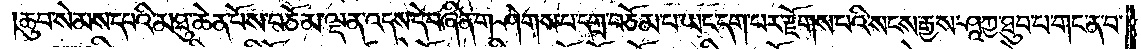ཆུབ་སེམས་དཔའི་མཐུ་ཆེན་པོས་བཅོམ་ལྡན་འདས་དེ་བཞིན་གཤེགས་པ་དགྲ་བཅོམ་པ་ཡང་དག་པར་རྫོགས་པའི་སངས་རྒྱས་ཤཱཀྱ་ཐུབ་པ་གང་ན་བ་
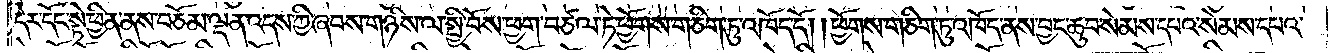དེར་དོང་སྟེ་ཕྱིན་ནས་བཅོམ་ལྡན་འདས་ཀྱི་ཞབས་གཉིས་ལ་སྤྱི་བོས་ཕྱག་བཙལ་ཏེ་ཕྱོགས་གཅིག་ཏུ་འཁོད་དོ། །ཕྱོགས་གཅིག་ཏུ་འཁོད་ནས་བྱང་ཆུབ་སེམས་དཔའ་སེམས་དཔའ་
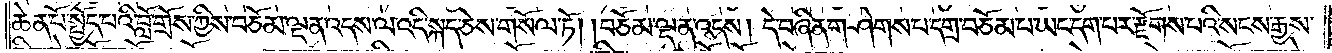ཆེན་པོ་སྤྱོད་པའི་བློ་གྲོས་ཀྱིས་བཅོམ་ལྡན་འདས་ལ་འདི་སྐད་ཅེས་གསོལ་ཏོ། །བཅོམ་ལྡན་འདས། དེ་བཞིན་གཤེགས་པ་དགྲ་བཅོམ་པ་ཡང་དག་པར་རྫོགས་པའི་སངས་རྒྱས་
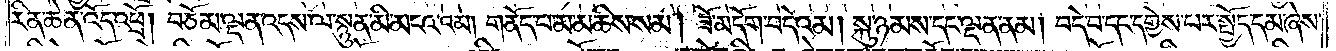རིན་ཆེན་འོད་འཕྲོ། བཅོམ་ལྡན་འདས་ལ་སྙུན་མི་མངའ་འམ། གནོད་པ་མ་མཆིས་སམ། ཟོ་མདོག་བདེའམ། སྐུ་ཉམས་དང་ལྡན་ནམ། བདེ་བ་དང་དགྱེས་པར་སྤྱོད་དམ་ཞེས་
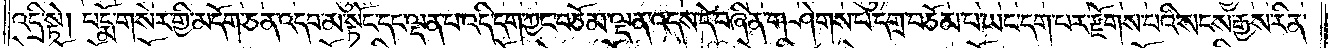འདྲི་སྟེ། པདྨོ་གསེར་གྱི་མདོག་ཅན་འདབ་མ་སྟོང་དང་ལྡན་པ་འདི་དག་ཀྱང་བཅོམ་ལྡན་འདས་དེ་བཞིན་གཤེགས་པ་དགྲ་བཅོམ་པ་ཡང་དག་པར་རྫོགས་པའི་སངས་རྒྱས་རིན་
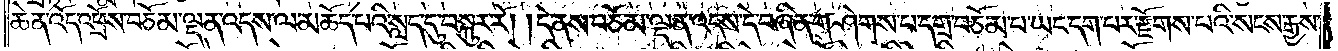ཆེན་འོད་འཕྲོས་བཅོམ་ལྡན་འདས་ལ་མཆོད་པའི་སླད་དུ་བསྐུར་རོ། །དེ་ནས་བཅོམ་ལྡན་འདས་དེ་བཞིན་གཤེགས་པ་དགྲ་བཅོམ་པ་ཡང་དག་པར་རྫོགས་པའི་སངས་རྒྱས་
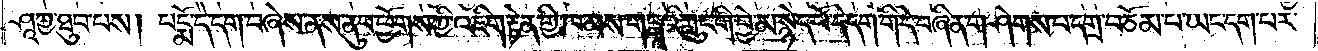ཤཱཀྱ་ཐུབ་པས། པདྨོ་དེ་དག་བཞེས་ནས་ནུབ་ཕྱོགས་ཀྱི་འཇིག་རྟེན་གྱི་ཁམས་གངྒཱའི་ཀླུང་གི་བྱེ་མ་སྙེད་ཕོ་དེ་དག་གི་དེ་བཞིན་གཤེགས་པ་དགྲ་བཅོམ་པ་ཡང་དག་པར་
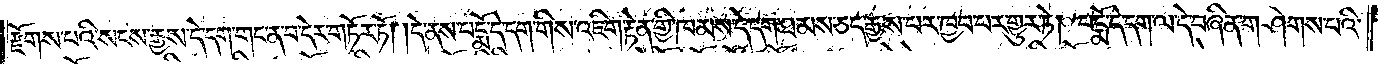རྫོགས་པའི་སངས་རྒྱས་དེ་དག་གང་ན་བ་དེར་གཏོར་ཏོ། །དེ་ནས་པདྨོ་དེ་དག་གིས་འཇིག་རྟེན་གྱི་ཁམས་དེ་དག་ཐམས་ཅད་རྒྱས་པར་ཁྱབ་པར་གྱུར་ཏེ། པདྨོ་དེ་དག་ལ་དེ་བཞིན་གཤེགས་པའི་
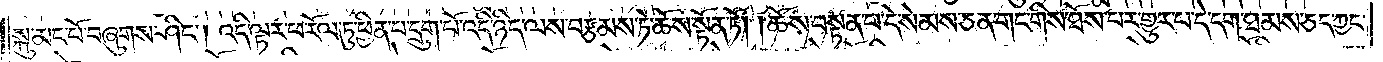སྐུ་མང་པོ་བཞུགས་ཤིང༌། འདི་ལྟར་ཕ་རོལ་ཏུ་ཕྱིན་པ་དྲུག་པོ་འདི་ཉིད་ལས་བརྩམས་ཏེ་ཆོས་སྟོན་ཏོ། །ཆོས་བསྟན་པ་དེ་སེམས་ཅན་གང་གིས་ཐོས་པར་གྱུར་པ་དེ་དག་ཐམས་ཅད་ཀྱང་
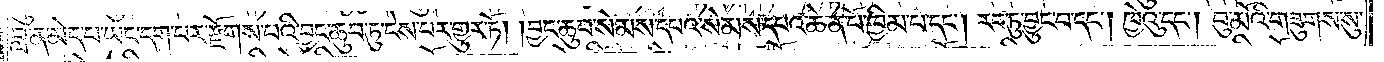བླ་ན་མེད་པ་ཡང་དག་པར་རྫོགས་པའི་བྱང་ཆུབ་ཏུ་ངེས་པར་གྱུར་ཏོ། །བྱང་ཆུབ་སེམས་དཔའ་སེམས་དཔའ་ཆེན་པོ་ཁྱིམ་པ་དང༌། རབ་ཏུ་བྱུང་བ་དང༌། ཁྱེའུ་དང༌། བུ་མོའི་གཟུགས་སུ་
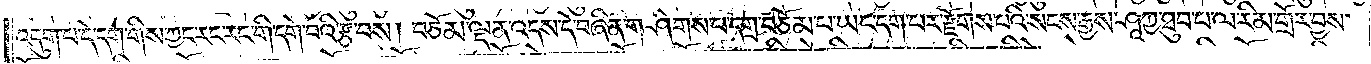འདུག་པ་དེ་དག་གིས་ཀྱང་རང་རང་གི་དགེ་བའི་རྩ་བས། བཅོམ་ལྡན་འདས་དེ་བཞིན་གཤེགས་པ་དགྲ་བཅོམ་པ་ཡང་དག་པར་རྫོགས་པའི་སངས་རྒྱས་ཤཱཀྱ་ཐུབ་པ་ལ་རིམ་གྲོར་བྱས་
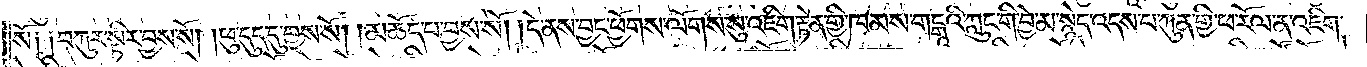སོ༑ ༑བཀུར་སྟིར་བྱས་སོ། །ཕུ་དུད་དུ་བྱས་སོ། །མཆོད་པ་བྱས་སོ། །དེ་ནས་བྱང་ཕྱོགས་ལོགས་སུ་འཇིག་རྟེན་གྱི་ཁམས་གངྒཱའི་ཀླུང་གི་བྱེ་མ་སྙེད་འདས་པ་ཀུན་གྱི་ཕ་རོལ་ན་འཇིག་
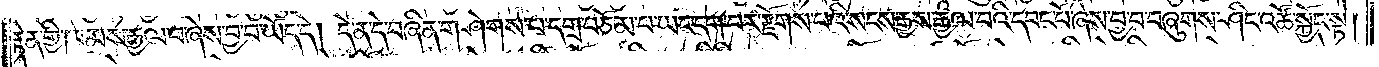རྟེན་གྱི་ཁམས་རྒྱལ་བ་ཞེས་བྱ་བ་ཡོད་དེ། དེ་ན་དེ་བཞིན་གཤེགས་པ་དགྲ་བཅོམ་པ་ཡང་དག་པར་རྫོགས་པའི་སངས་རྒྱས་རྒྱལ་བའི་དབང་པོ་ཞེས་བྱ་བ་བཞུགས་ཤིང་འཚོ་སྐྱོང་སྟེ།
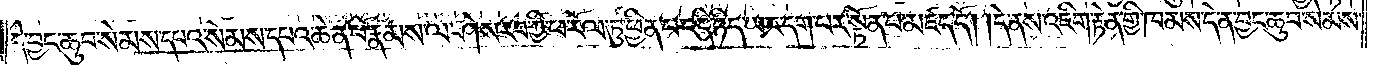དེ་བྱང་ཆུབ་སེམས་དཔའ་སེམས་དཔའ་ཆེན་པོ་རྣམས་ལ་ཤེས་རབ་ཀྱི་ཕ་རོལ་ཏུ་ཕྱིན་པ་འདི་ཉིད་ཡང་དག་པར་སྟོན་པ་མཛད་དོ། །དེ་ནས་འཇིག་རྟེན་གྱི་ཁམས་དེ་ན་བྱང་ཆུབ་སེམས་
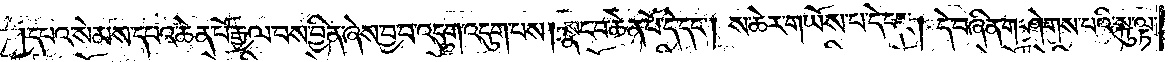དཔའ་སེམས་དཔའ་ཆེན་པོ་རྒྱལ་བས་བྱིན་ཞེས་བྱ་བ་འདུག་འདུག་པས། སྣང་བ་ཆེན་པོ་དེ་དང༌། ས་ཆེར་གཡོས་པ་དེ་དང༌། དེ་བཞིན་གཤེགས་པའི་སྐུ་ལྟ་
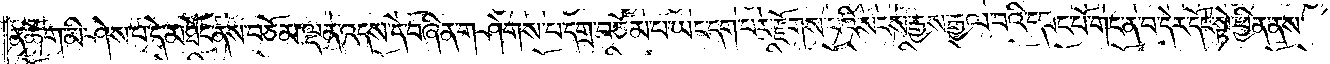ན་ཆོག་མི་ཤེས་པ་དེ་མཐོང་ནས་བཅོམ་ལྡན་འདས་དེ་བཞིན་གཤེགས་པ་དགྲ་བཅོམ་པ་ཡང་དག་པར་རྫོགས་པའི་སངས་རྒྱས་རྒྱལ་བའི་དབང་པོ་གང་ན་བ་དེར་དོང་སྟེ་ཕྱིན་ནས་
